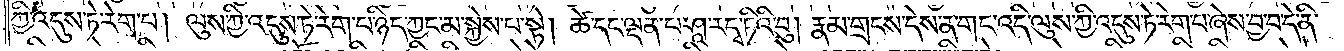ཀྱི་འདུས་ཏེ་རེག་པ། ལུས་ཀྱི་འདུས་ཏེ་རེག་པ་ཉིད་ཀྱང་མ་སྐྱེས་པ་སྟེ། ཚེ་དང་ལྡན་པ་ཤཱ་ར་དྭ་ཏིའི་བུ། རྣམ་གྲངས་དེས་ན་གང་འདི་ལུས་ཀྱི་འདུས་ཏེ་རེག་པ་ཞེས་བྱ་བ་དེ་ནི་
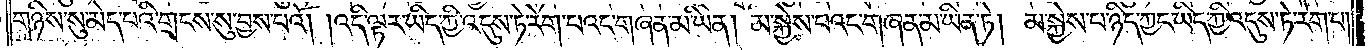གཉིས་སུ་མེད་པའི་གྲངས་སུ་བྱས་པའོ། །འདི་ལྟར་ཡིད་ཀྱི་འདུས་ཏེ་རེག་པའང་གཞན་མ་ཡིན། མ་སྐྱེས་པའང་གཞན་མ་ཡིན་ཏེ། མ་སྐྱེས་པ་ཉིད་ཀྱང་ཡིད་ཀྱི་འདུས་ཏེ་རེག་པ་
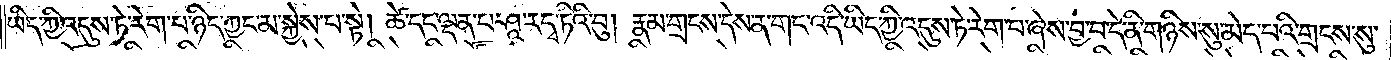ཡིད་ཀྱི་འདུས་ཏེ་རེག་པ་ཉིད་ཀྱང་མ་སྐྱེས་པ་སྟེ། ཚེ་དང་ལྡན་པ་ཤཱ་ར་དྭ་ཏིའི་བུ། རྣམ་གྲངས་དེས་ན་གང་འདི་ཡིད་ཀྱི་འདུས་ཏེ་རེག་པ་ཞེས་བྱ་བ་དེ་ནི་གཉིས་སུ་མེད་པའི་གྲངས་སུ་
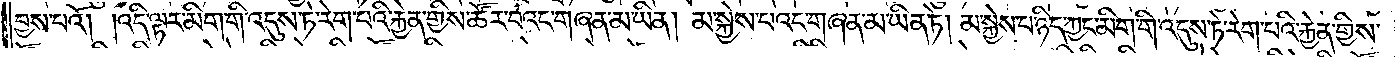བྱས་པའོ། །འདི་ལྟར་མིག་གི་འདུས་ཏེ་རེག་པའི་རྐྱེན་གྱིས་ཚོར་བའང་གཞན་མ་ཡིན། མ་སྐྱེས་པའང་གཞན་མ་ཡིན་ཏེ། མ་སྐྱེས་པ་ཉིད་ཀྱང་མིག་གི་འདུས་ཏེ་རེག་པའི་རྐྱེན་གྱིས་
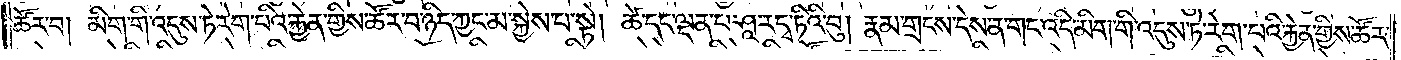ཚོར་བ། མིག་གི་འདུས་ཏེ་རེག་པའི་རྐྱེན་གྱིས་ཚོར་བ་ཉིད་ཀྱང་མ་སྐྱེས་པ་སྟེ། ཚེ་དང་ལྡན་པ་ཤཱ་ར་དྭ་ཏིའི་བུ། རྣམ་གྲངས་དེས་ན་གང་འདི་མིག་གི་འདུས་ཏེ་རེག་པའི་རྐྱེན་གྱིས་
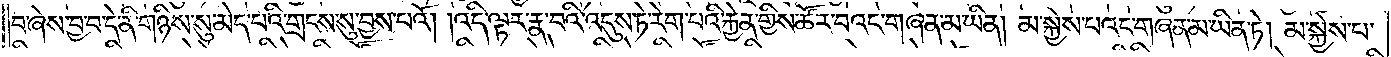ཚོར་བ་ཞེས་བྱ་བ་དེ་ནི་གཉིས་སུ་མེད་པའི་གྲངས་སུ་བྱས་པའོ། །འདི་ལྟར་རྣ་བའི་འདུས་ཏེ་རེག་པའི་རྐྱེན་གྱིས་ཚོར་བའང་གཞན་མ་ཡིན། མ་སྐྱེས་པའང་གཞན་མ་ཡིན་ཏེ། མ་སྐྱེས་པ་
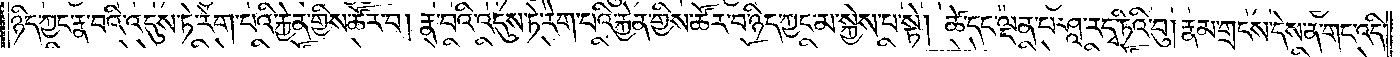ཉིད་ཀྱང་རྣ་བའི་འདུས་ཏེ་རེག་པའི་རྐྱེན་གྱིས་ཚོར་བ། རྣ་བའི་འདུས་ཏེ་རེག་པའི་རྐྱེན་གྱིས་ཚོར་བ་ཉིད་ཀྱང་མ་སྐྱེས་པ་སྟེ། ཚེ་དང་ལྡན་པ་ཤཱ་ར་དྭ་ཏིའི་བུ། རྣམ་གྲངས་དེས་ན་གང་འདི་
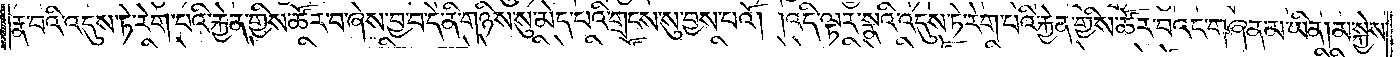རྣ་བའི་འདུས་ཏེ་རེག་པའི་རྐྱེན་གྱིས་ཚོར་བ་ཞེས་བྱ་བ་དེ་ནི་གཉིས་སུ་མེད་པའི་གྲངས་སུ་བྱས་པའོ། །འདི་ལྟར་སྣའི་འདུས་ཏེ་རེག་པའི་རྐྱེན་གྱིས་ཚོར་བའང་གཞན་མ་ཡིན། མ་སྐྱེས་
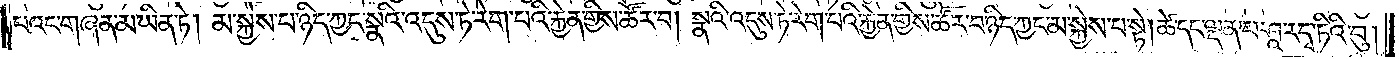པའང་གཞན་མ་ཡིན་ཏེ། མ་སྐྱེས་པ་ཉིད་ཀྱང་སྣའི་འདུས་ཏེ་རེག་པའི་རྐྱེན་གྱིས་ཚོར་བ། སྣའི་འདུས་ཏེ་རེག་པའི་རྐྱེན་གྱིས་ཚོར་བ་ཉིད་ཀྱང་མ་སྐྱེས་པ་སྟེ། ཚེ་དང་ལྡན་པ་ཤཱ་ར་དྭ་ཏིའི་བུ་
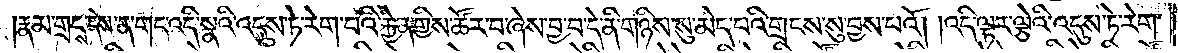རྣམ་གྲངས་དེས་ན། གང་འདི་སྣའི་འདུས་ཏེ་རེག་པའི་རྐྱེན་གྱིས་ཚོར་བ་ཞེས་བྱ་བ་དེ་ནི་གཉིས་སུ་མེད་པའི་གྲངས་སུ་བྱས་པའོ། །འདི་ལྟར་ལྕེའི་འདུས་ཏེ་རེག་
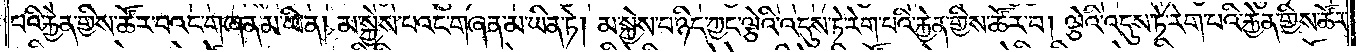པའི་རྐྱེན་གྱིས་ཚོར་བའང་གཞན་མ་ཡིན། མ་སྐྱེས་པའང་གཞན་མ་ཡིན་ཏེ། མ་སྐྱེས་པ་ཉིད་ཀྱང་ལྕེའི་འདུས་ཏེ་རེག་པའི་རྐྱེན་གྱིས་ཚོར་བ། ལྕེའི་འདུས་ཏེ་རེག་པའི་རྐྱེན་གྱིས་ཚོར་
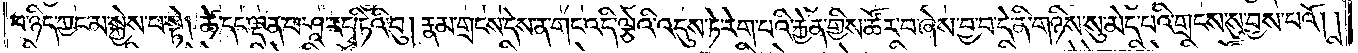བ་ཉིད་ཀྱང་མ་སྐྱེས་པ་སྟེ། ཚེ་དང་ལྡན་པ་ཤཱ་ར་དྭ་ཏིའི་བུ། རྣམ་གྲངས་དེས་ན་གང་འདི་ལྕེའི་འདུས་ཏེ་རེག་པའི་རྐྱེན་གྱིས་ཚོར་བ་ཞེས་བྱ་བ་དེ་ནི་གཉིས་སུ་མེད་པའི་གྲངས་སུ་བྱས་པའོ། །
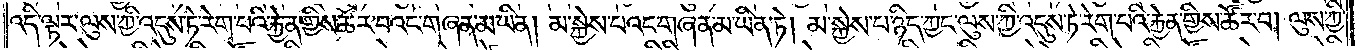འདི་ལྟར་ལུས་ཀྱི་འདུས་ཏེ་རེག་པའི་རྐྱེན་གྱིས་ཚོར་བའང་གཞན་མ་ཡིན། མ་སྐྱེས་པའང་གཞན་མ་ཡིན་ཏེ། མ་སྐྱེས་པ་ཉིད་ཀྱང་ལུས་ཀྱི་འདུས་ཏེ་རེག་པའི་རྐྱེན་གྱིས་ཚོར་བ། ལུས་ཀྱི་
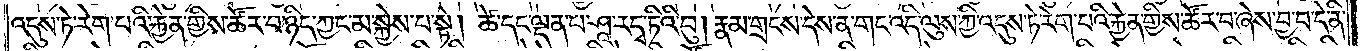འདུས་ཏེ་རེག་པའི་རྐྱེན་གྱིས་ཚོར་བ་ཉིད་ཀྱང་མ་སྐྱེས་པ་སྟེ། ཚེ་དང་ལྡན་པ་ཤཱ་ར་དྭ་ཏིའི་བུ། རྣམ་གྲངས་དེས་ན་གང་འདི་ལུས་ཀྱི་འདུས་ཏེ་རེག་པའི་རྐྱེན་གྱིས་ཚོར་བ་ཞེས་བྱ་བ་དེ་ནི་
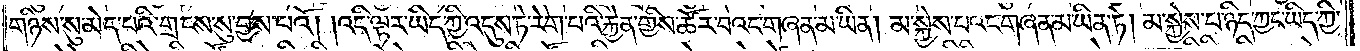གཉིས་སུ་མེད་པའི་གྲངས་སུ་བྱས་པའོ། །འདི་ལྟར་ཡིད་ཀྱི་འདུས་ཏེ་རེག་པའི་རྐྱེན་གྱིས་ཚོར་བའང་གཞན་མ་ཡིན། མ་སྐྱེས་པའང་གཞན་མ་ཡིན་ཏེ། མ་སྐྱེས་པ་ཉིད་ཀྱང་ཡིད་ཀྱི་
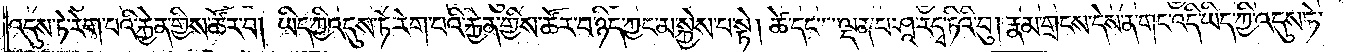འདུས་ཏེ་རེག་པའི་རྐྱེན་གྱིས་ཚོར་བ། ཡིད་ཀྱི་འདུས་ཏེ་རེག་པའི་རྐྱེན་གྱིས་ཚོར་བ་ཉིད་ཀྱང་མ་སྐྱེས་པ་སྟེ། ཚེ་དང་ལྡན་པ་ཤཱ་ར་དྭ་ཏིའི་བུ། རྣམ་གྲངས་དེས་ན་གང་འདི་ཡིད་ཀྱི་འདུས་ཏེ་
